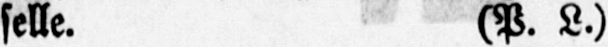selle. (P. L.)
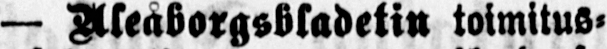— Aleåborgsbladetin toimitus-
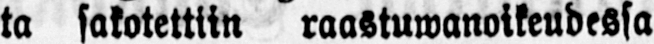ta sakotettiin raastuwanoikeudessa
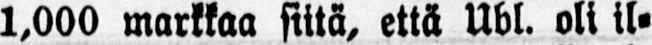1,000 markkaa siitä, että Ubl. oli il-
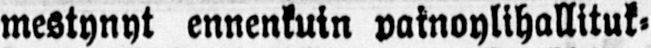mestynyt ennenkuin painoylihallituk-
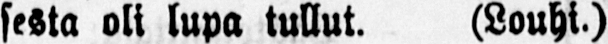sesta oli lupa tullut. (Louhi.)
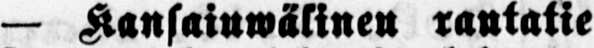— Kansainmälinen rautatie-
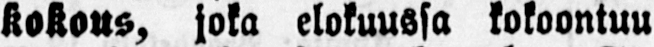kokous, joka elokuussa kokoontuu
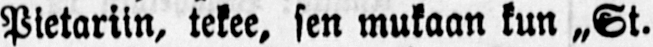Pietariin, tekee, sen mukaan kun „St.
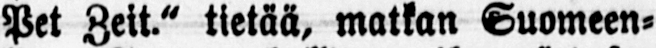Pet Zeit." tietää, matkan Suomeen-
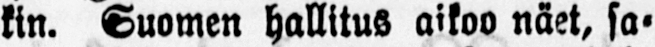kin. Suomen hallitus aikoo näet, sa-
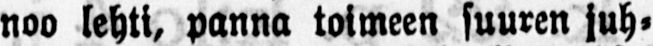noo lehti, panna toimeen suuren juh-
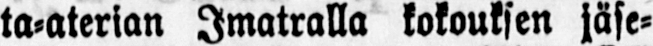ta-aterian Imatralla kokouksen jäse-
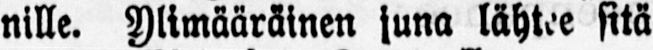nille. Ylimääräinen juna lähtee sitä
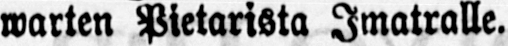warten Pietarista Imatralle.
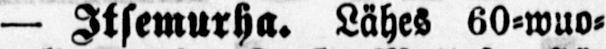— Itsemurha. Lähes 60-wuo-
